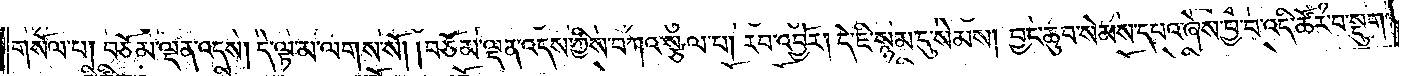གསོལ་པ། བཅོམ་ལྡན་འདས། དེ་ལྟ་མ་ལགས་སོ། །བཅོམ་ལྡན་འདས་ཀྱིས་བཀའ་སྩལ་པ། རབ་འབྱོར། དེ་ཇི་སྙམ་དུ་སེམས། བྱང་ཆུབ་སེམས་དཔའ་ཞེས་བྱ་བ་འདི་ཚོར་བ་སྡུག་
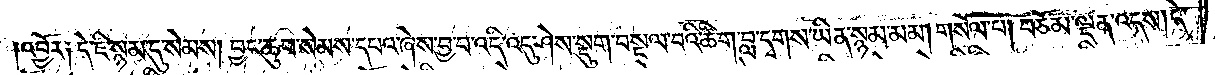འབྱོར༑ དེ་ཇི་སྙམ་དུ་སེམས། བྱང་ཆུབ་སེམས་དཔའ་ཞེས་བྱ་བ་འདི་འདུ་ཤེས་སྡུག་བསྔལ་བའི་ཚིག་བླ་དྭགས་ཡིན་སྙམ་མམ། གསོལ་པ། བཅོམ་ལྡན་འདས། དེ་
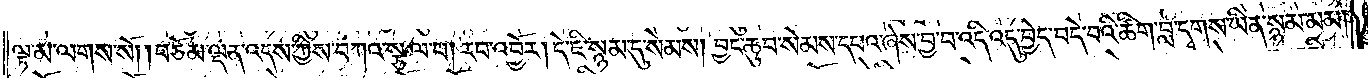ལྟ་མ་ལགས་སོ། །བཅོམ་ལྡན་འདས་ཀྱིས་བཀའ་སྩལ་པ། རབ་འབྱོར། དེ་ཇི་སྙམ་དུ་སེམས། བྱང་ཆུབ་སེམས་དཔའ་ཞེས་བྱ་བ་འདི་འདུ་བྱེད་བདེ་བའི་ཚིག་བླ་དྭགས་ཡིན་སྙམ་མམ།
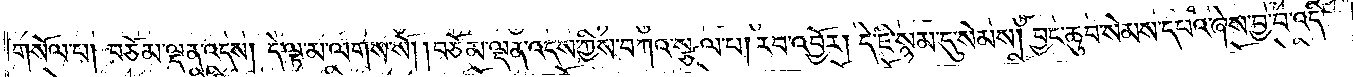གསོལ་པ། བཅོམ་ལྡན་འདས། དེ་ལྟ་མ་ལགས་སོ། །བཅོམ་ལྡན་འདས་ཀྱིས་བཀའ་སྩལ་པ། རབ་འབྱོར། དེ་ཇི་སྙམ་དུ་སེམས། བྱང་ཆུབ་སེམས་དཔའ་ཞེས་བྱ་བ་འདི་
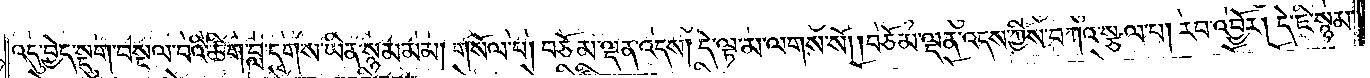འདུ་བྱེད་སྡུག་བསྔལ་བའི་ཚིག་བླ་དྭགས་ཡིན་སྙམ་མམ། གསོལ་པ། བཅོམ་ལྡན་འདས། དེ་ལྟ་མ་ལགས་སོ། །བཅོམ་ལྡན་འདས་ཀྱིས་བཀའ་སྩལ་པ། རབ་འབྱོར། དེ་ཇི་སྙམ་
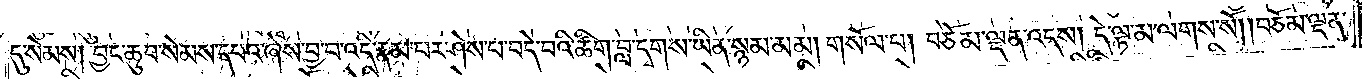དུ་སེམས། བྱང་ཆུབ་སེམས་དཔའ་ཞེས་བྱ་བ་འདི་རྣམ་པར་ཤེས་པ་བདེ་བའི་ཚིག་བླ་དྭགས་ཡིན་སྙམ་མམ། གསོལ་པ། བཅོམ་ལྡན་འདས། དེ་ལྟ་མ་ལགས་སོ། །བཅོམ་ལྡན་
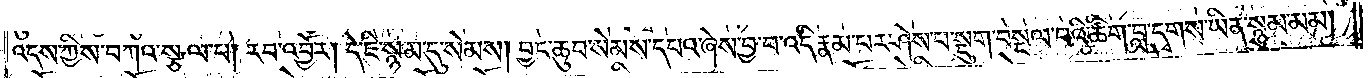འདས་ཀྱིས་བཀའ་སྩལ་པ། རབ་འབྱོར། དེ་ཇི་སྙམ་དུ་སེམས། བྱང་ཆུབ་སེམས་དཔའ་ཞེས་བྱ་བ་འདི་རྣམ་པར་ཤེས་པ་སྡུག་བསྔལ་བའི་ཚིག་བླ་དྭགས་ཡིན་སྙམ་མམ།
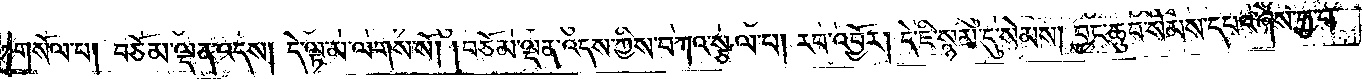གསོལ་པ། བཅོམ་ལྡན་འདས། དེ་ལྟ་མ་ལགས་སོ། །བཅོམ་ལྡན་འདས་ཀྱིས་བཀའ་སྩལ་པ། རབ་འབྱོར། དེ་ཇི་སྙམ་དུ་སེམས། བྱང་ཆུབ་སེམས་དཔའ་ཞེས་བྱ་བ་
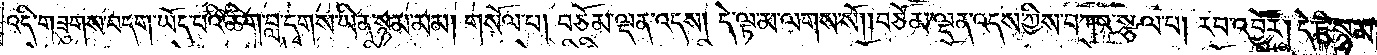འདི་གཟུགས་བདག་ཡོད་པའི་ཚིག་བླ་དྭགས་ཡིན་སྙམ་མམ། གསོལ་པ། བཅོམ་ལྡན་འདས། དེ་ལྟ་མ་ལགས་སོ། །བཅོམ་ལྡན་འདས་ཀྱིས་བཀའ་སྩལ་པ། རབ་འབྱོར། དེ་ཇི་སྙམ་
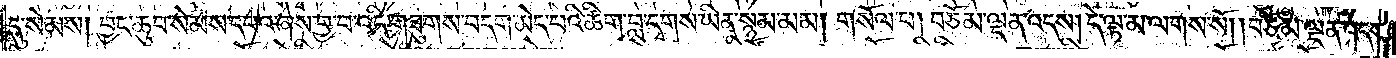དུ་སེམས། བྱང་ཆུབ་སེམས་དཔའ་ཞེས་བྱ་བ་འདི་གཟུགས་བདག་མེད་པའི་ཚིག་བླ་དྭགས་ཡིན་སྙམ་མམ། གསོལ་པ། བཅོམ་ལྡན་འདས། དེ་ལྟ་མ་ལགས་སོ། །བཅོམ་ལྡན་འདས་
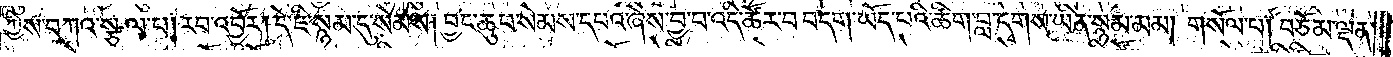ཀྱིས་བཀའ་སྩལ་པ། རབ་འབྱོར། དེ་ཇི་སྙམ་དུ་སེམས། བྱང་ཆུབ་སེམས་དཔའ་ཞེས་བྱ་བ་འདི་ཚོར་བ་བདག་ཡོད་པའི་ཚིག་བླ་དྭགས་ཡིན་སྙམ་མམ། གསོལ་པ། བཅོམ་ལྡན་
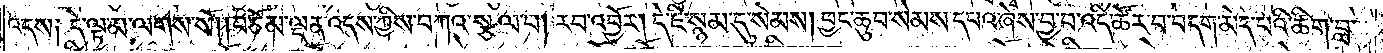འདས༑ དེ་ལྟ་མ་ལགས་སོ། །བཅོམ་ལྡན་འདས་ཀྱིས་བཀའ་སྩལ་པ། རབ་འབྱོར། དེ་ཇི་སྙམ་དུ་སེམས། བྱང་ཆུབ་སེམས་དཔའ་ཞེས་བྱ་བ་འདི་ཚོར་བ་བདག་མེད་པའི་ཚིག་བླ་
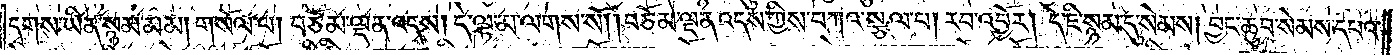དྭགས་ཡིན་སྙམ་མམ། གསོལ་པ། བཅོམ་ལྡན་འདས། དེ་ལྟ་མ་ལགས་སོ། །བཅོམ་ལྡན་འདས་ཀྱིས་བཀའ་སྩལ་པ། རབ་འབྱོར། དེ་ཇི་སྙམ་དུ་སེམས། བྱང་ཆུབ་སེམས་དཔའ་
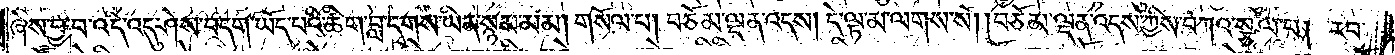ཞེས་བྱ་བ་འདི་འདུ་ཤེས་བདག་ཡོད་པའི་ཚིག་བླ་དྭགས་ཡིན་སྙམ་མམ། གསོལ་པ། བཅོམ་ལྡན་འདས། དེ་ལྟ་མ་ལགས་སོ། །བཅོམ་ལྡན་འདས་ཀྱིས་བཀའ་སྩལ་པ། རབ་
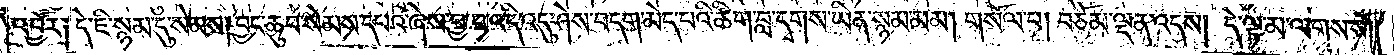འབྱོར༑ དེ་ཇི་སྙམ་དུ་སེམས། བྱང་ཆུབ་སེམས་དཔའ་ཞེས་བྱ་བ་འདི་འདུ་ཤེས་བདག་མེད་པའི་ཚིག་བླ་དྭགས་ཡིན་སྙམ་མམ། གསོལ་པ། བཅོམ་ལྡན་འདས། དེ་ལྟ་མ་ལགས་སོ༎
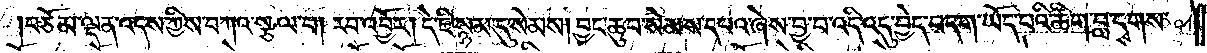བཅོམ་ལྡན་འདས་ཀྱིས་བཀའ་སྩལ་པ། རབ་འབྱོར། དེ་ཇི་སྙམ་དུ་སེམས། བྱང་ཆུབ་སེམས་དཔའ་ཞེས་བྱ་བ་འདི་འདུ་བྱེད་བདག་ཡོད་པའི་ཚིག་བླ་དྭགས་
